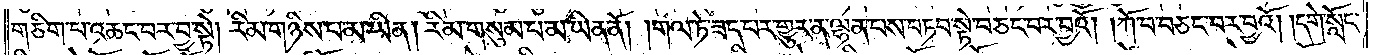གཅིག་པ་འཆང་བར་བྱ་སྟེ། རིམ་གཉིས་པ་མ་ཡིན། རིམ་གསུམ་པ་མ་ཡིན་ནོ། །གལ་ཏེ་ཟད་པར་གྱུར་ན་ལྷན་པས་བཏབ་སྟེ་བཅང་བར་བྱའོ། །ཀོ་བ་བཅང་བར་བྱའོ། །དགེ་སློང་
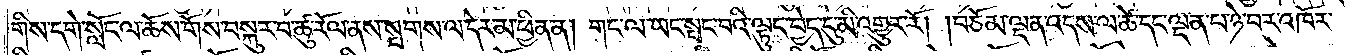གིས་དགེ་སློང་ལ་ཆོས་གོས་བསྐུར་བ་ཚུ་རོལ་ནས་སྤགས་ལ་དེར་མ་ཕྱིན་ན། གང་ལ་ཡང་སྤང་བའི་ལྟུང་བྱེད་དུ་མི་འགྱུར་རོ། །བཅོམ་ལྡན་འདས་ལ་ཚེ་དང་ལྡན་པ་ཉེ་བར་འཁོར་
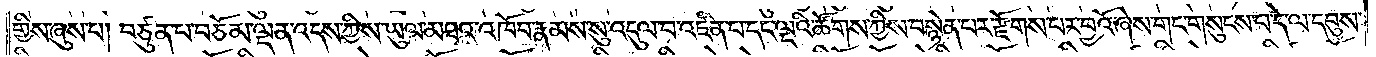གྱིས་ཞུས་པ། བཙུན་པ་བཅོམ་ལྡན་འདས་ཀྱིས་ཡུལ་མཐའ་འཁོབ་རྣམས་སུ་འདུལ་བ་འཛིན་པ་དང་ལྔའི་ཚོགས་ཀྱིས་བསྙེན་པར་རྫོགས་པར་བྱའོ་ཞེས་གང་གསུངས་པ་དེ་ལ་དབུས་
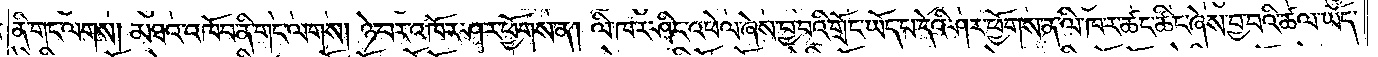ནི་གང་ལགས། མཐའ་འཁོབ་ནི་གང་ལགས། ཉེ་བར་འཁོར་ཤར་ཕྱོགས་ན། ལི་ཁ་ར་ཤིང་འཕེལ་ཞེས་བྱ་བའི་གྲོང་ཡོད་པ་དེའི་ཤར་ཕྱོགས་ན་ལི་ཁ་ར་ཚང་ཚིང་ཞེས་བྱ་བའི་ཚལ་ཡོད་
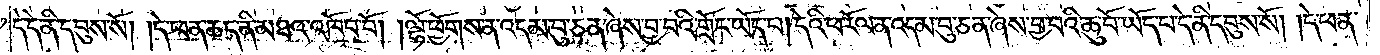དེ་དེ་ནི་དབུས་སོ། །དེ་ཕན་ཆད་ནི་མཐའ་འཁོབ་བོ། །ལྷོ་ཕྱོགས་ན་འདམ་བུ་ཅན་ཞེས་བྱ་བའི་གྲོང་ཡོད་པ། དེའི་ཕ་རོལ་ན་འདམ་བུ་ཅན་ཞེས་བྱ་བའི་ཆུ་བོ་ཡོད་པ་དེ་ནི་དབུས་སོ། །དེ་ཕན་
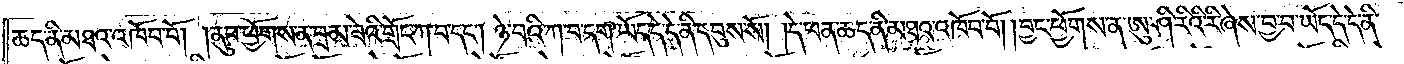ཆད་ནི་མཐའ་འཁོབ་བོ། །ནུབ་ཕྱོགས་ན་བྲམ་ཟེའི་གྲོང་ཀ་བ་དང༌། ཉེ་བའི་ཀ་བ་དག་ཡོད་དེ་དེ་ནི་དབུས་སོ། །དེ་ཕན་ཆད་ནི་མཐའ་འཁོབ་བོ། །བྱང་ཕྱོགས་ན་ཨུ་ཤི་རིའི་རི་ཞེས་བྱ་བ་ཡོད་དེ་དེ་ནི་
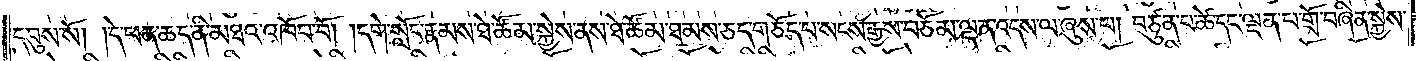དབུས་སོ། །དེ་ཕན་ཆད་ནི་མཐའ་འཁོབ་བོ། །དགེ་སློང་རྣམས་ཐེ་ཚོམ་སྐྱེས་ནས་ཐེ་ཚོམ་ཐམས་ཅད་གཅོད་པ་སངས་རྒྱས་བཅོམ་ལྡན་འདས་ལ་ཞུས་པ། བཙུན་པ་ཚེ་དང་ལྡན་པ་གྲོ་བཞིན་སྐྱེས་
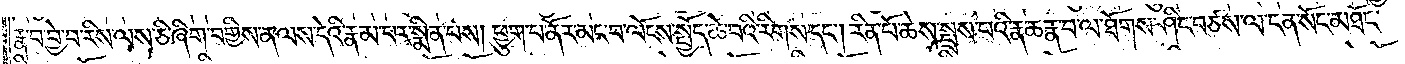རྣ་བ་བྱེ་བ་རིས་ལས་ཅི་ཞིག་བགྱིས་ན་ལས་དེའི་རྣམ་པར་སྨིན་པས། ཕྱུག་པ་ནོར་མང་བ་ལོངས་སྤྱོད་ཆེ་བའི་རིགས་དང༌། རིན་པོ་ཆེས་སྤྲས་པའི་རྣ་ཆ་རྣ་བ་ལ་ཐོགས་ཤིང་བཙས་ལ་ངན་སོང་མཐོང་
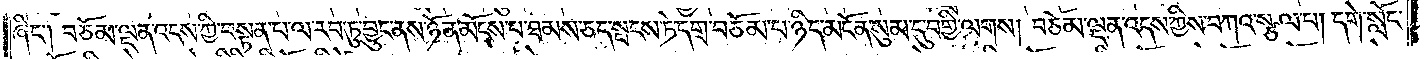ཞིང༌། བཅོམ་ལྡན་འདས་ཀྱི་བསྟན་པ་ལ་རབ་ཏུ་བྱུང་ནས་ཉོན་མོངས་པ་ཐམས་ཅད་སྤངས་ཏེ་དགྲ་བཅོམ་པ་ཉིད་མངོན་སུམ་དུ་བགྱི་ལགས། བཅོམ་ལྡན་འདས་ཀྱིས་བཀའ་སྩལ་པ། དགེ་སློང་
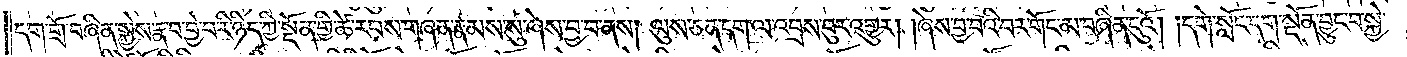དག་གྲོ་བཞིན་སྐྱེས་རྣ་བ་བྱེ་བ་རི་ཉིད་ཀྱི་སྔོན་གྱི་ཚེ་རབས་གཞན་རྣམས་སུ་ཞེས་བྱ་བ་ནས། ལུས་ཅན་དག་ལ་འབྲས་བུར་འགྱུར། །ཞེས་བྱ་བའི་བར་གོང་མ་བཞིན་དུའོ། །དགེ་སློང་དག་སྔོན་བྱུང་བ་སྐྱེ་
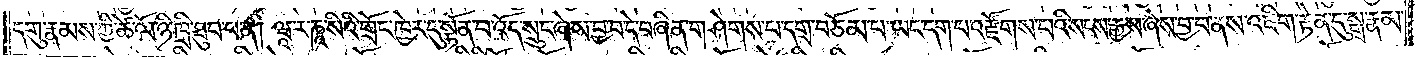དགུ་རྣམས་ཀྱི་ཚེ་ལོ་ཉི་ཁྲི་ཐུབ་པ་ན། ཝཱ་ར་ཎཱ་སིའི་གྲོང་ཁྱེར་དུ་སྟོན་པ་འོད་སྲུང་ཞེས་བྱ་བ་དེ་བཞིན་གཤེགས་པ་དགྲ་བཅོམ་པ་ཡང་དག་པར་རྫོགས་པའི་སངས་རྒྱས་ཞེས་བྱ་བ་ནས་འཇིག་རྟེན་དུ་སྒྲ་རྣམ་
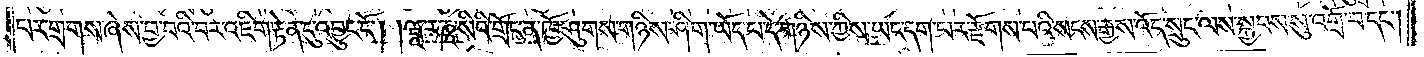པར་གྲགས་ཞེས་བྱ་བའི་བར་འཇིག་རྟེན་དུ་འབྱུང་ངོ༌། །ཝཱ་ར་ཎཱ་སིའི་གྲོང་ན་ཁྱོ་ཤུགས་གཉིས་ཤིག་ཡོད་པ་དེ་གཉིས་ཀྱིས་ཡང་དག་པར་རྫོགས་པའི་སངས་རྒྱས་འོད་སྲུང་ལས་སྐྱབས་སུ་འགྲོ་བ་དང༌།
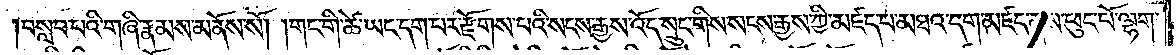བསླབ་པའི་གཞི་རྣམས་མནོས་སོ། །གང་གི་ཚེ་ཡང་དག་པར་རྫོགས་པའི་སངས་རྒྱས་འོད་སྲུང་གིས་སངས་རྒྱས་ཀྱི་མཛད་པ་མཐའ་དག་མཛད་ནས་ཕུང་པོ་ལྷག་
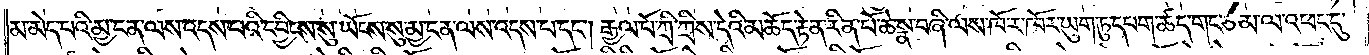མ་མེད་པའི་མྱ་ངན་ལས་འདས་པའི་དབྱིངས་སུ་ཡོངས་སུ་མྱ་ངན་ལས་འདས་པ་དང༌། རྒྱལ་པོ་ཀྲི་ཀྲིས་དེའི་མཆོད་རྟེན་རིན་པོ་ཆེ་སྣ་བཞི་ལས་ཁོ་ར་ཁོར་ཡུག་ཏུ་དཔག་ཚད་གང་ཙམ་ལ་འཕང་དུ་
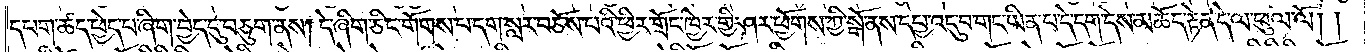དཔག་ཚད་ཕྱེད་པ་ཞིག་བྱེད་དུ་བཅུག་ནས། དེ་ཞིག་ཅིང་གོགས་པ་དག་སླར་བཅོས་པའི་ཕྱིར་གྲོང་ཁྱེར་གྱི་ཤར་ཕྱོགས་ཀྱི་སྒོ་ནས་དཔྱ་འདུ་བ་གང་ཡིན་པ་དེ་དག་དེས་མཆོད་རྟེན་དེ་ལ་ཕུལ་ལོ། །
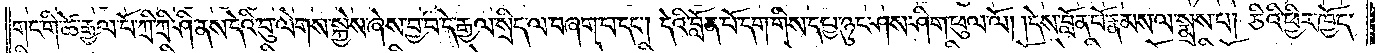གང་གི་ཚེ་རྒྱལ་པོ་ཀྲི་ཀྲི་ཤི་ནས་དེའི་བུ་ལེགས་སྐྱེས་ཞེས་བྱ་བ་དེ་རྒྱལ་སྲིད་ལ་བཞག་པ་དང༌། དེའི་བློན་པོ་དག་གིས་དཔྱ་ཉུང་ཤས་ཤིག་ཕུལ་ལོ། །དེས་བློན་པོ་རྣམས་ལ་སྨྲས་པ། ཅིའི་ཕྱིར་ཁྱོད་
